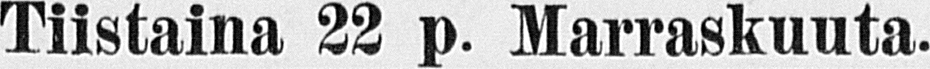Tiistaina 22 p. Marraskuuta.
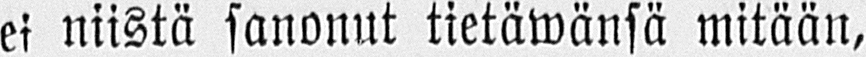ei niistä sanonut tietäwänsä mitään,
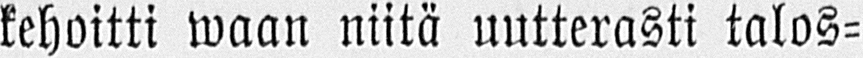kehoitti waan niitä uutterasti talos-
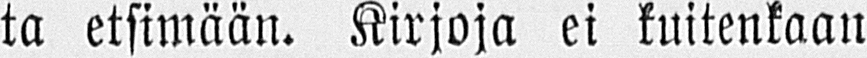ta etsimään. Kirjoja ei kuitenkaan
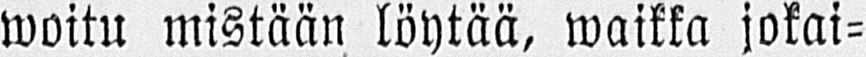woitu mistään löytää, waikka jokai-
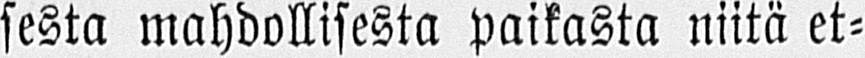sesta mahdollisesta paikasta niitä et-
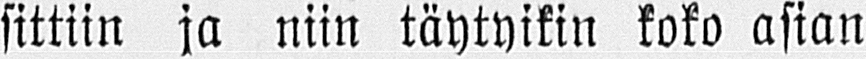sittiin ja niin täytyikin koko asian
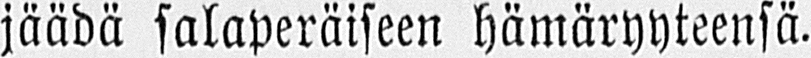jäädä salaperäiseen hämäryyteensä.
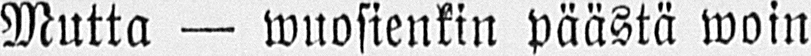Mutta — wuosienkin päästä woin
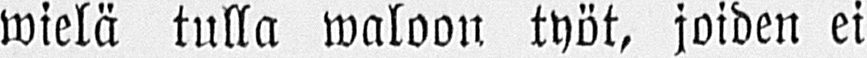wielä tulla waloon työt, joiden ei
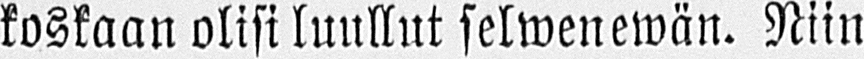koskaan olisi luullut selwenewän. Niin
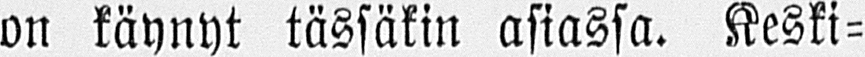on käynyt tässäkin asiassa. Keski-
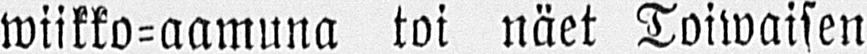wiikko-aamuna toi näet Toiwaisen
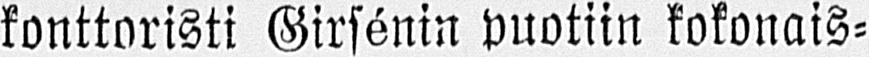konttoristi Girsénin puotiin kokonais-
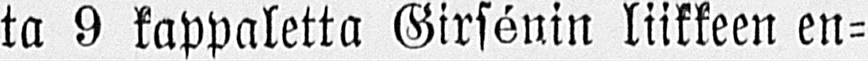ta 9 kappaletta Girsénin liikkeen en-
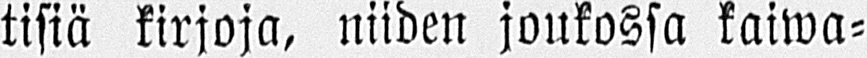tisiä kirjoja, niiden joukossa kaiwa-
